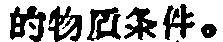的物貭条件。
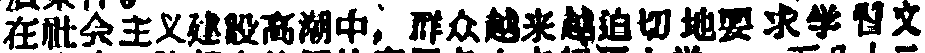在社会主义建設高潮中，群众越来越迫切地要求学習文
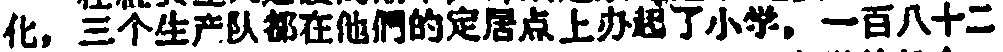化，三个生产队都在他們的定居点上办起了小学，一百八十二
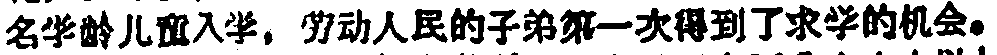名学龄儿童入学，劳动人民的子弟第一次得到了求学的机会。
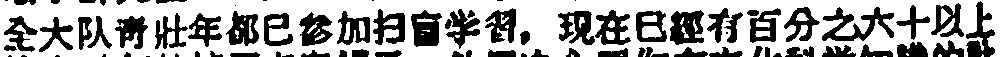全大队靑壮年都已参加扫盲学習，現在已經有百分之六十以上
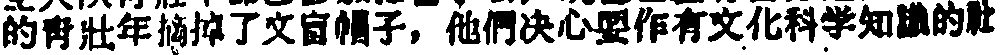的靑壮年摘掉了文盲帽子，他們决心要作有文化科学知識的社
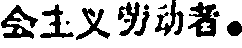会主义劳动者。
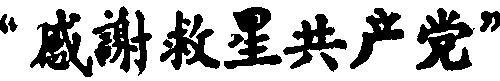“感謝救星共产党”
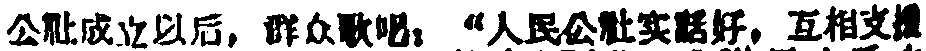公社成立以后，群众歌唱：“人民公社实話好，互相支援
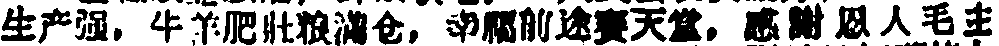生产强，牛羊肥壯粮滿仓，幸福前途賽天堂，感謝恩人毛主
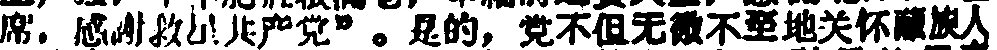席，感謝救星共产党”。是的，党不但无微不至地关怀藏族人
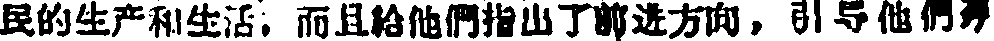民的生产和生活，而且給他們指出了前进方向，引导他們去
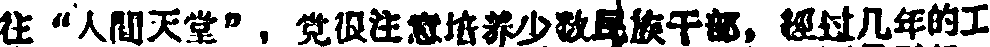往“人間天堂”，党很主义培养少数民族干部。經过几年的工
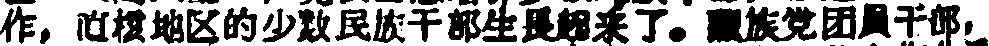作。直核地区的少数民族干部生長起来了，藏族党团員干部，
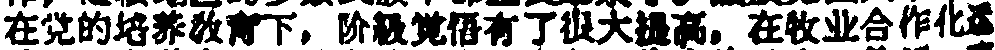在党的培养教育下，阶级覺悟有了很大提高，在牧业合作化运
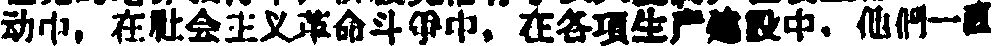动中，在社会主义革命斗爭中，在各項生产建設中，他們一直
